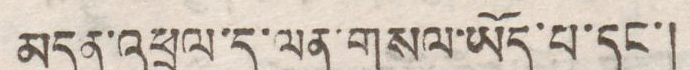མདུན་འཕྲལ་དུ་ལན་གསལ་ཡོད་པ་དང་།
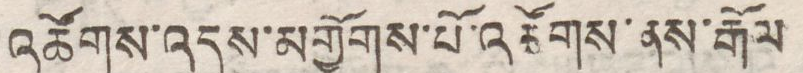འཚོགས་འདུས་མགྱོགས་པོ་འཚོགས་ནས་རྒོལ
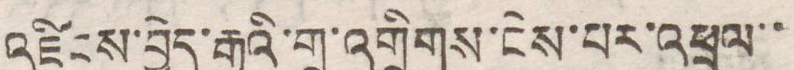འཛིངས་བྱེད་རྒྱུའི་གྲ་འགྲིགས་ངེས་པར་འཕྲལ་་
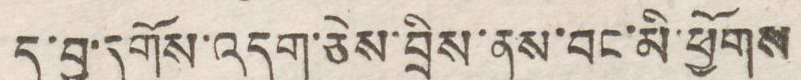དུ་བྱ་དགོས་འདུག་ཅེས་བྲིས་ནས་བང་མི་ཕྱོགས
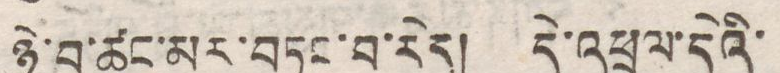ཉེ་བ་ཚང་མར་བཏང་བ་རེད། དེ་འཕྲལ་དེའི་
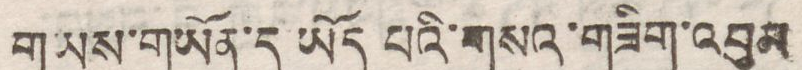གཡས་གཡོན་དུ ཡོད པའི་གསའ་གཟིག་འབུམ
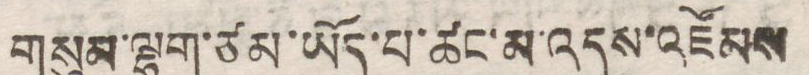གསུམ་ལྷག་ཙམ་ཡོད་པ་ཚང་མ་འདུས་འཛོམས
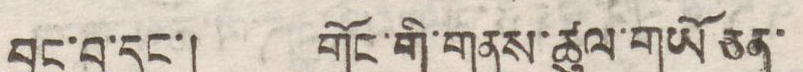བྱུང་བ་དང་། གོང་གི་གནས་ཚུལ་གཡོ ཅན་
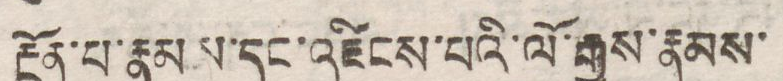རྔོན་པོ་རྣམས་དང་འཛིངས་པའི་ལོ་རྒྱུས་རྣམས་
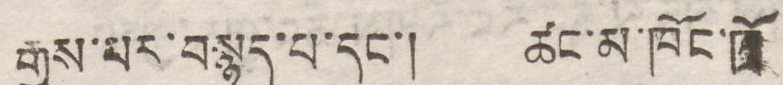རྒྱས་པར་བསྙད་པ་དང་། ཚང་མ་ཁོང་ཁྲོ
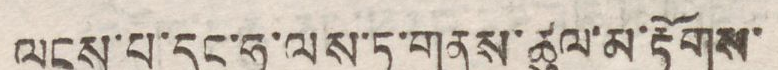ལངས་པ་དང་ཧ་ལས་ར་གནས་ཚུལ་མ་རྟོགས་
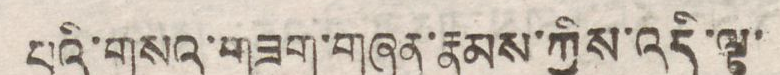པའི་གསའ་གཟག་གཞན་རྣམས་ཀྱིས་འདི་ལྟ་
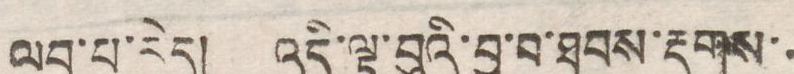ལབ་པ་རེད། འདི་ལྟ་བུའི་བྱ་བ་ཐབས་རྡུགས་
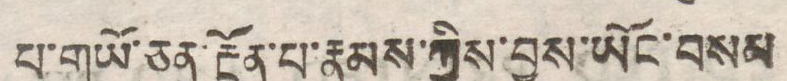པ་གཡོ་ཅན་རྔོན་པ་རྣམས་ཀྱིས་བྱས་ཡོང་བསམ
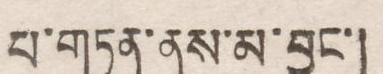པ་གཏན་ནས་མ་བྱུང་།
